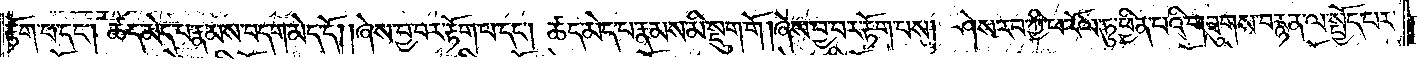རྟོག་པ་དང༌། ཚད་མེད་པ་རྣམས་བདག་མེད་དོ། །ཞེས་བྱ་བར་རྟོག་པ་དང༌། ཚད་མེད་པ་རྣམས་མི་སྡུག་གོ །ཞེས་བྱ་བར་རྟོག་པས། ཤེས་རབ་ཀྱི་ཕ་རོལ་ཏུ་ཕྱིན་པའི་གཟུགས་བརྙན་ལ་སྤྱོད་པར་
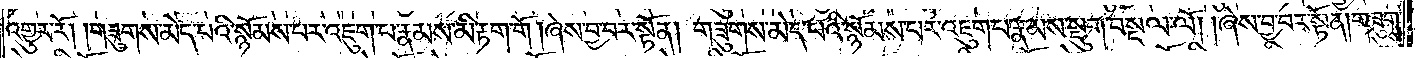འགྱུར་རོ། །གཟུགས་མེད་པའི་སྙོམས་པར་འཇུག་པ་རྣམས་མི་རྟག་གོ། ཞེས་བྱ་བར་སྟོན། གཟུགས་མེད་པའི་སྙོམས་པར་འཇུག་པ་རྣམས་སྡུག་བསྔལ་ལོ། །ཞེས་བྱ་བར་སྟོན། གཟུགས་
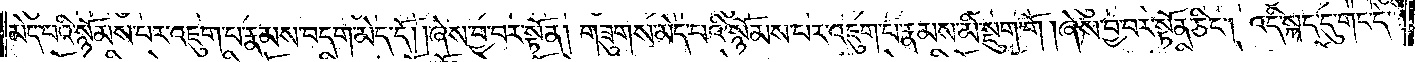མེད་པའི་སྙོམས་པར་འཇུག་པ་རྣམས་བདག་མེད་དོ། །ཞེས་བྱ་བར་སྟོན། གཟུགས་མེད་པའི་སྙོམས་པར་འཇུག་པ་རྣམས་མི་སྡུག་གོ །ཞེས་བྱ་བར་སྟོན་ཅིང༌། འདི་སྐད་དུ་གང་དེ་
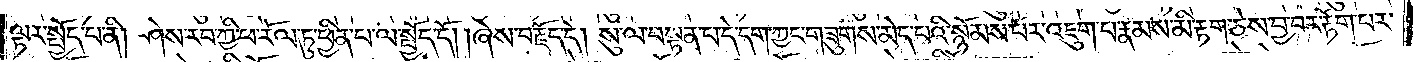ལྟར་སྤྱོད་པ་ནི། ཤེས་རབ་ཀྱི་ཕ་རོལ་ཏུ་ཕྱིན་པ་ལ་སྤྱོད་དོ། །ཞེས་བརྗོད་དེ། སུ་ལ་བསྟན་པ་དེ་དག་ཀྱང་གཟུགས་མེད་པའི་སྙོམས་པར་འཇུག་པ་རྣམས་མི་རྟག་ཅེས་བྱ་བར་རྟོག་པར་
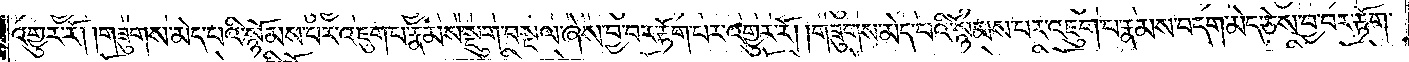འགྱུར་རོ། །གཟུགས་མེད་པའི་སྙོམས་པར་འཇུག་པ་རྣམས་སྡུག་བསྔལ་ཞེས་བྱ་བར་རྟོག་པར་འགྱུར་རོ། །གཟུགས་མེད་པའི་སྙོམས་པར་འཇུག་པ་རྣམས་བདག་མེད་ཅེས་བྱ་བར་རྟོག་
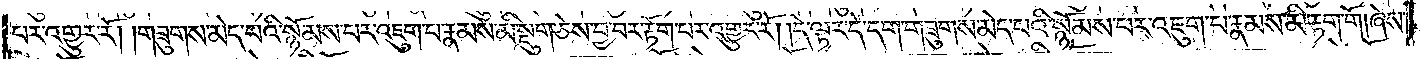པར་འགྱུར་རོ། །གཟུགས་མེད་པའི་སྙོམས་པར་འཇུག་པ་རྣམས་མི་སྡུག་ཅེས་བྱ་བར་རྟོག་པར་འགྱུར་རོ། །དེ་ལྟར་དེ་དག་གཟུགས་མེད་པའི་སྙོམས་པར་འཇུག་པ་རྣམས་མི་རྟག་གོ །ཞེས་
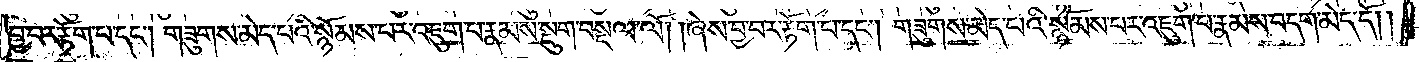བྱ་བར་རྟོག་པ་དང༌། གཟུགས་མེད་པའི་སྙོམས་པར་འཇུག་པ་རྣམས་སྡུག་བསྔལ་ལོ། །ཞེས་བྱ་བར་རྟོག་པ་དང༌། གཟུགས་མེད་པའི་སྙོམས་པར་འཇུག་པ་རྣམས་བདག་མེད་དོ༎
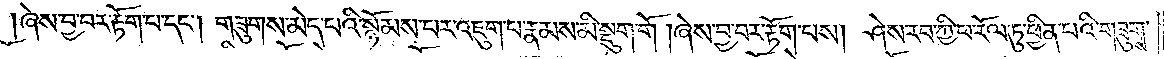ཞེས་བྱ་བར་རྟོག་པ་དང༌། གཟུགས་མེད་པའི་སྙོམས་པར་འཇུག་པ་རྣམས་མི་སྡུག་གོ །ཞེས་བྱ་བར་རྟོག་པས། ཤེས་རབ་ཀྱི་ཕ་རོལ་ཏུ་ཕྱིན་པའི་གཟུགས་
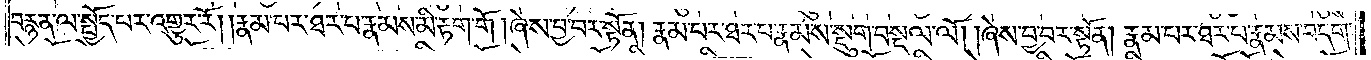བརྙན་ལ་སྤྱོད་པར་འགྱུར་རོ། །རྣམ་པར་ཐར་པ་རྣམས་མི་རྟག་གོ །ཞེས་བྱ་བར་སྟོན། རྣམ་པར་ཐར་པ་རྣམས་སྡུག་བསྔལ་ལོ། །ཞེས་བྱ་བར་སྟོན། རྣམ་པར་ཐར་པ་རྣམས་བདག་
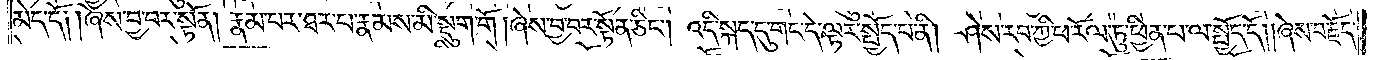མེད་དོ༑ །ཞེས་བྱ་བར་སྟོན། རྣམ་པར་ཐར་པ་རྣམས་མི་སྡུག་གོ །ཞེས་བྱ་བར་སྟོན་ཅིང༌། འདི་སྐད་དུ་གང་དེ་ལྟར་སྤྱོད་པ་ནི། ཤེས་རབ་ཀྱི་ཕ་རོལ་ཏུ་ཕྱིན་པ་ལ་སྤྱོད་དོ། །ཞེས་བརྗོད་
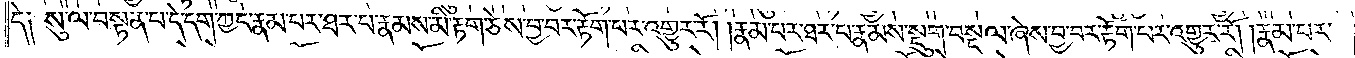དེ༑ སུ་ལ་བསྟན་པ་དེ་དག་ཀྱང་རྣམ་པར་ཐར་པ་རྣམས་མི་རྟག་ཅེས་བྱ་བར་རྟོག་པར་འགྱུར་རོ། །རྣམ་པར་ཐར་པ་རྣམས་སྡུག་བསྔལ་ཞེས་བྱ་བར་རྟོག་པར་འགྱུར་རོ། །རྣམ་པར་
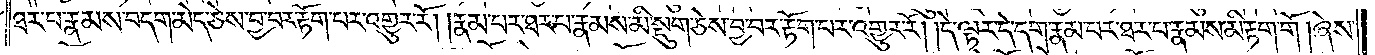ཐར་པ་རྣམས་བདག་མེད་ཅེས་བྱ་བར་རྟོག་པར་འགྱུར་རོ། །རྣམ་པར་ཐར་པ་རྣམས་མི་སྡུག་ཅེས་བྱ་བར་རྟོག་པར་འགྱུར་རོ། །དེ་ལྟར་དེ་དག་རྣམ་པར་ཐར་པ་རྣམས་མི་རྟག་གོ །ཞེས་
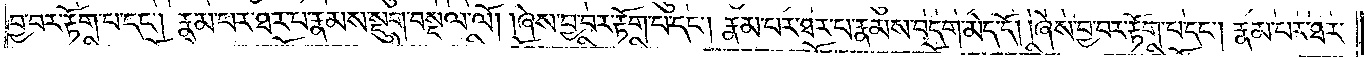བྱ་བར་རྟོག་པ་དང༌། རྣམ་པར་ཐར་པ་རྣམས་སྡུག་བསྔལ་ལོ། །ཞེས་བྱ་བར་རྟོག་པ་དང༌། རྣམ་པར་ཐར་པ་རྣམས་བདག་མེད་དོ། །ཞེས་བྱ་བར་རྟོག་པ་དང༌། རྣམ་པར་ཐར་
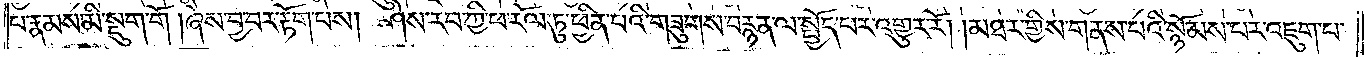པ་རྣམས་མི་རྟག་གོ །ཞེས་བྱ་བར་རྟོག་པས། ཤེས་རབ་ཀྱི་ཕ་རོལ་ཏུ་ཕྱིན་པའི་གཟུགས་བརྙན་ལ་སྤྱོད་པར་འགྱུར་རོ། །མཐར་གྱིས་གནས་པའི་སྙོམས་པར་འཇུག་པ་
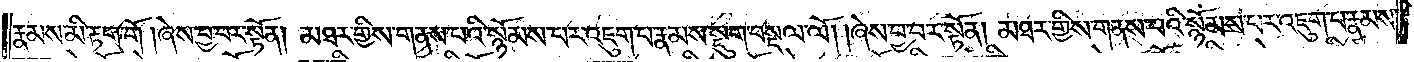རྣམས་མི་རྟག་གོ །ཞེས་བྱ་བར་སྟོན། མཐར་གྱིས་གནས་པའི་སྙོམས་པར་འཇུག་པ་རྣམས་སྡུག་བསྔལ་ལོ། །ཞེས་བྱ་བར་སྟོན། མཐར་གྱིས་གནས་པའི་སྙོམས་པར་འཇུག་པ་རྣམས་
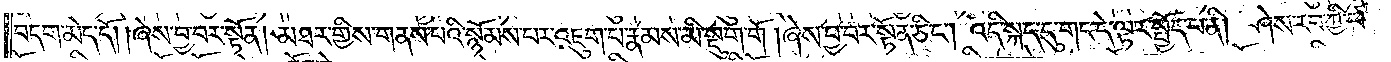བདག་མེད་དོ། །ཞེས་བྱ་བར་སྟོན། མཐར་གྱིས་གནས་པའི་སྙོམས་པར་འཇུག་པ་རྣམས་མི་སྡུག་གོ། །ཞེས་བྱ་བར་སྟོན་ཅིང༌། འདི་སྐད་དུ་གང་དེ་ལྟར་སྤྱོད་པ་ནི། ཤེས་རབ་ཀྱི་ཕ་
